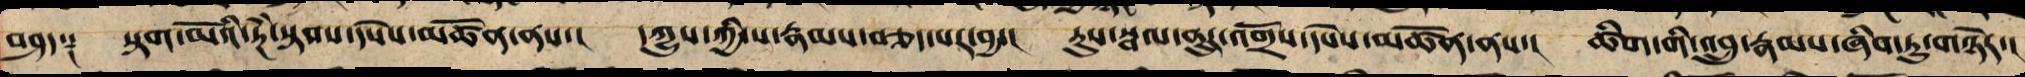བཤད༑ སྟག་མོའི་རྔཾ་སྟབས་དཔེས་མཚོན་ནས་། དཀྱུས་ཀྱི་ས་རྣམས་གཅད་པར་བྱ་། རུས་སྦལ་ནུར་འགྲོས་དཔེས་མཚོན་ནས་། ཚིག་གི་འབྲུ་རྣམས་ཞིབ་ཏུ་གཉེར་།
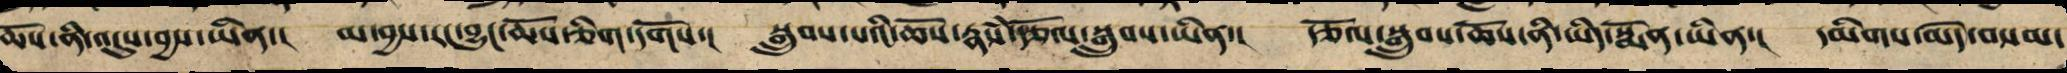ཆོས་ནི་འདུས་བྱས་ཡིན་། མ་བྱས་རང་བྱུང་ཆོས་ཅིག་དགོས་། སྒྲུབས་པའི་ཆོས་རྣཾས་རྩོལ་སྒྲུབས་ཡིན་། རྩོལ་སྒྲུབས་ཆོས་ནི་ཡིད་སྨོན་ཡིན་། དམིགས་མེད་བསམ་
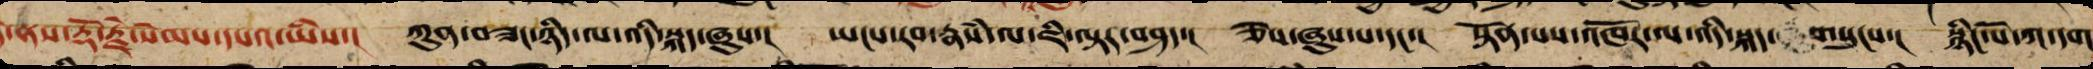དེ་ནས་རྡོ་རྗེ་སེམས་དཔའ་ཡིས་། ཀུན་བཟང་ཉིད་ལ་འདི་སྐད་ཞུས་། ཡང་རབ་རྣཾས་ལ་ཇི་ལྟར་བཤད་། ཅེས་ཞུས་པ་དང་། སྟོན་པས་འཁོར་ལ་འདི་སྐད་གསུངས་། སྙིང་པོ་ཀ་དག་
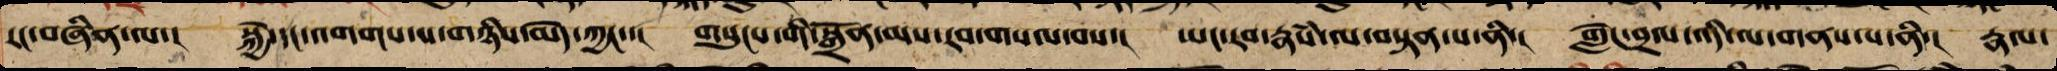རང་བཞིན་ལ་། སྐྱེ་དང་འགག་པ་གཉིས་མེད་ཀྱང་་། གསུང་གི་སྒྲོན་མ་རབ་གསལ་བས་། ཡང་རབ་རྣཾས་ལ་བསྟན་པ་ནི་། གླེང་བྲལ་འདི་ལ་གནས་པ་ནི་། རྣལ་
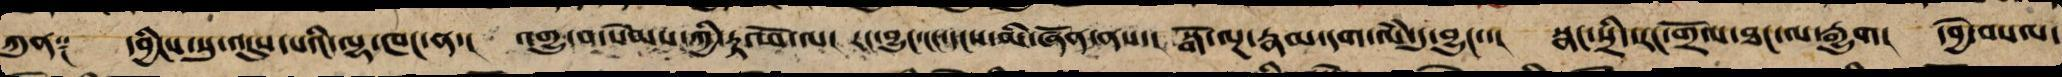ཀུན༑ དབྱིངས་སུ་འདུས་པའི་ལྷ་ཁང་ན་། འགྱུ་བ་སེམས་ཀྱི་རྟ་ཕོ་ལ་། རང་བྱུང་ངང་དངས་མི་ཞོན་ནས་། སྒོ་ལྔ་རྣམ་དག་ལཾ་དུ་བྱུང་་། སྣང་སྲིད་རང་གྲོལ་ཐང་ལ་རྒྱུག། དབྱེ་བསལ་
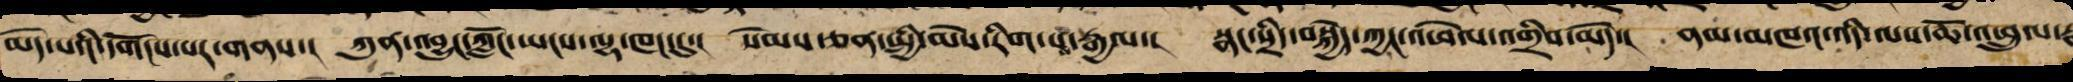མེད་པའི་དགོངས་པར་གནས། ཀུན་འབྱུང་ཀློང་ཡངས་ལྷ་ཁང་དུ། སེམས་ཅན་སྤྱི་མེས་རེག་པའི་རྒྱལ། སྣང་སྲིད་བསྐྱེད་ཀྱང་འཕེལ་འགྲིབ་མེད། ནམ་མཁའ་འདི་ལས་ཆོ་འཕྲུལ་རྣམས
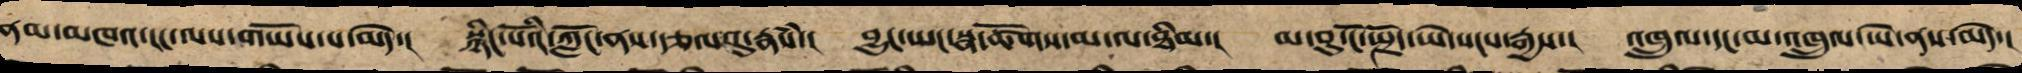ནམ་མཁའ་ངང་ལས་གཡོས་པ་མེད་། སྙིང་པོའི་ཀློང་ནས་རྩལ་དུ་རྣཾས་། བྱུང་ཡང་སྣ་ཚོགས་མ་ལ་ཐིམ་། མ་བུ་ངོ་སྤྲོད་ཡེ་སངས་རྒྱས་། འཁྲུལ་དང་མ་འཁྲུལ་ཡེ་ནས་མེད་།
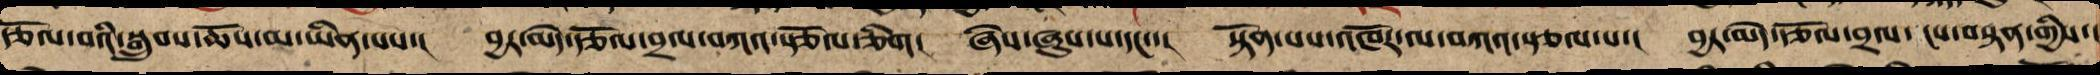རྩོལ་བའི་སྒྲུབས་ཆོས་མ་ཡིན་པས་། བྱར་མེད་རྩོལ་བྲལ་བཀའ་སྩོལ་ཅིག། ཞེས་ཞུས་པ་དང་་། སྟོན་པས་འཁོར་ལ་བཀའ་སྩལ་པ་། བྱར་མེད་རྩོལ་བྲལ་ ངས་བསྟན་གྱིས་།
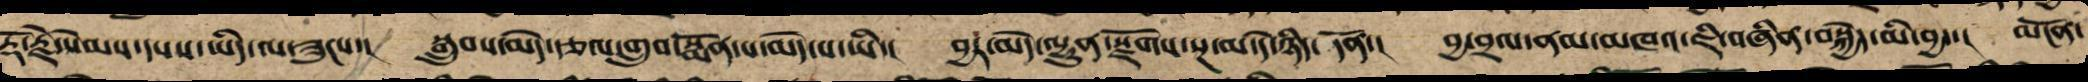རྡོ་རྗེ་སེམས་དཔས་ཡིད་ལ་ཟུངས་། སྒྲུབས་མེད་རྩལ་གྲུབ་སྨོན་པ་མེད་པ་ཡི་། བྱར་མེད་ལྷུན་སྫོགས་སྔ་མ་དེ་ཉིད་དོན་། བྱ་བྲལ་ནམ་མཁའ་ཇི་བཞིན་བསྐྱེད་མི་བྱ་། མངོན་
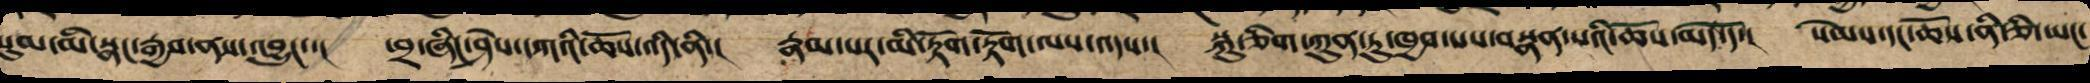སུམ་མི་སྣང་རྒྱབ་ནས་འབྱུང་་། ཕྲ་ཞིང་ཤེས་དཀའི་ཆོས་འདི་ནི་། རྣམ་པར་མི་རྟོག་རྟོག་ལས་འདས་། སྐུ་གཅིག་ཀུན་ཏུ་ཁྱབ་པས་བསྣན་པའི་ཆོས་མེད་དེ་། སེམས་དང་ཆོས་ནི་ཅི་ཡང་
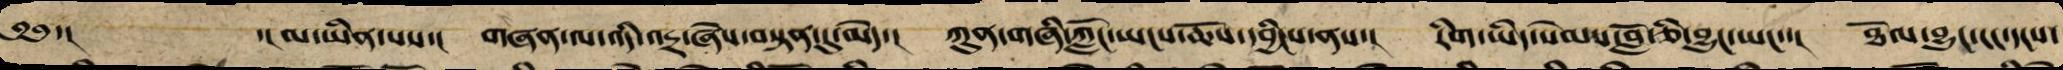༄༅་། ་།མ་ཡིན་པས་། གཞན་ལ་འདི་འདྲ་ཞེས་ནི་བསྟན་དུ་མེད་། ཀུན་གཞི་ཀློང་ཡངས་ཆོས་དབྱིངས་ནས་། རིག་ཡིད་སེམས་བློ་ཅི་བྱུང་ཡང་་། ཐོལ་བྱུང་ངང་དངས་
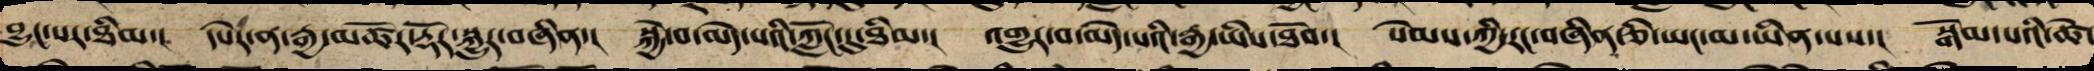བྱུང་སར་ཐིམ་། དཔེར་ན་རྒྱ་མཚོར་རྡོར་སྐྱུར་བཞིན་། སྐྱེ་བ་མེད་པའི་ཀློང་དུ་ཐིམ་། འགྱུར་བ་མེད་པའི་རྒྱ་ཡིས་ཐོབ་། སེམས་ཀྱི་རང་བཞིན་ཅི་ཡང་མ་ཡིན་པས་། སྒོམ་པའི་ཚེ་
